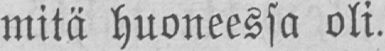mitä huoneessa oli.
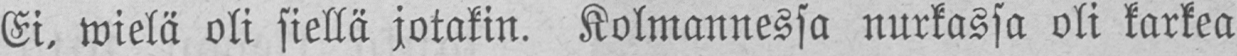Ei, wielä oli siellä jotakin. Kolmannessa nurkassa oli karkea
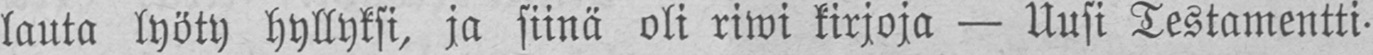lauta lyöty hyllyksi, ja siinä oli riwi kirjoja — Uusi Testamentti
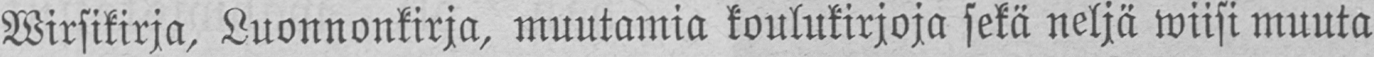Wirsikirja, Luonnonkirja, muutamia koulukirjoja sekä neljä wiisi muuta
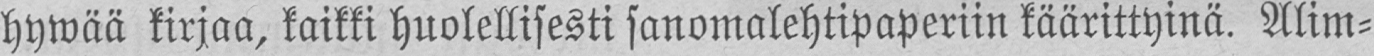hywää kirjaa, kaikki huolellisesti sanomalehtipaperiin käärittyinä. Alim-
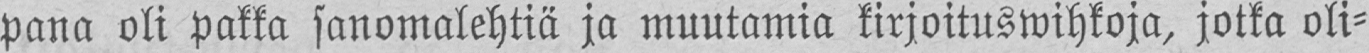pana oli pakka sanomalehtiä ja muutamia kirjoituswihkoja, jotka oli-
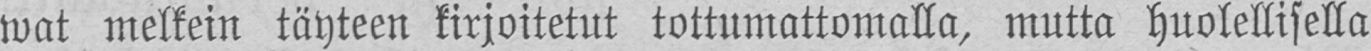wat melkein täyteen kirjoitetut tottumattomalla, mutta huolellisella
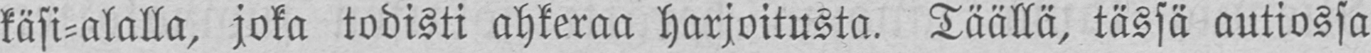käsi-alalla, joka todisti ahkeraa harjoitusta. Täällä, tässä autiossa
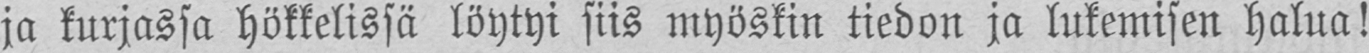ja kurjassa hökkelissä löytyi siis myöskin tiedon ja lukemisen halua!
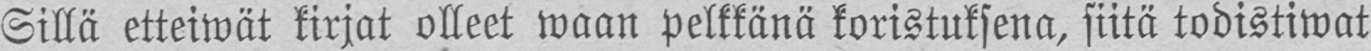Sillä etteiwät kirjat olleet waan pelkkänä koristuksena, siitä todistiwat
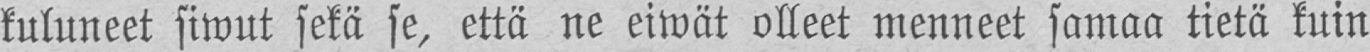kuluneet siwut sekä se, että ne eiwät olleet menneet samaa tietä kuin
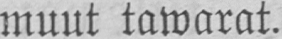muut tawarat.
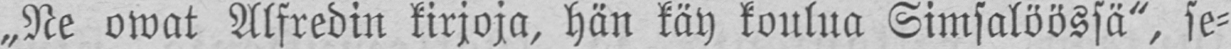„Ne owat Alfredin kirjoja, hän käy koulua Simsalöössä", se-
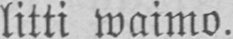litti waimo.
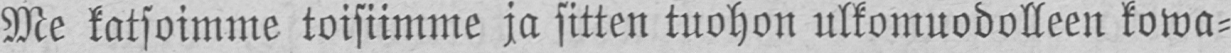Me katsoimme toisiimme ja sitten tuohon ulkomuodolleen kowa-
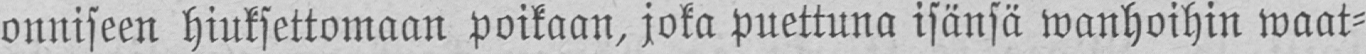onniseen hiuksettomaan poikaan, joka puettuna isänsä wanhoihin waat-
